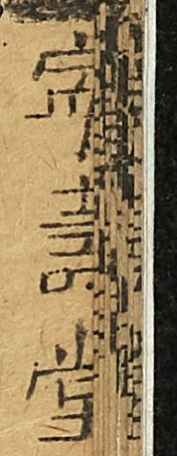寧壽堂
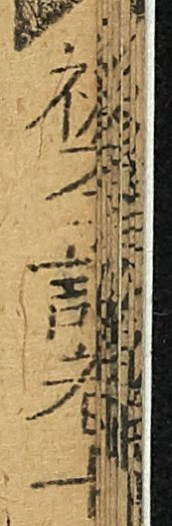初學記卷七
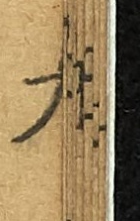九
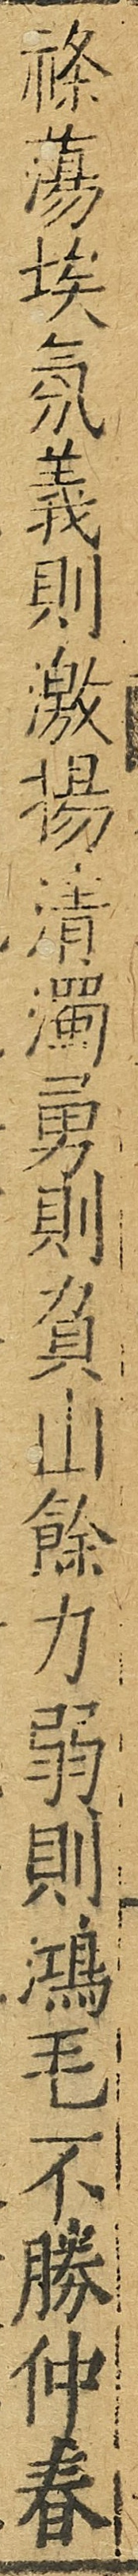滌蕩埃氛義則激揚清濁勇則負山餘力弱則鴻毛不勝仲春
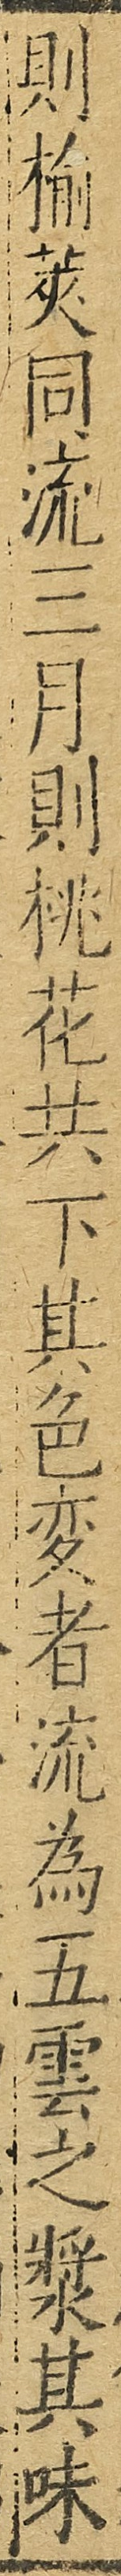則榆莢同流三月則桃花共下其色變者流為五雲之漿其味
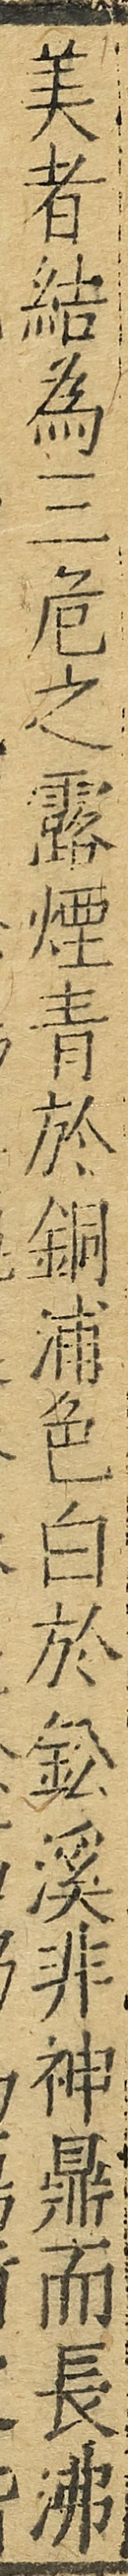美者結為三危之露煙青於銅浦色白於鉛溪非神鼎而長沸
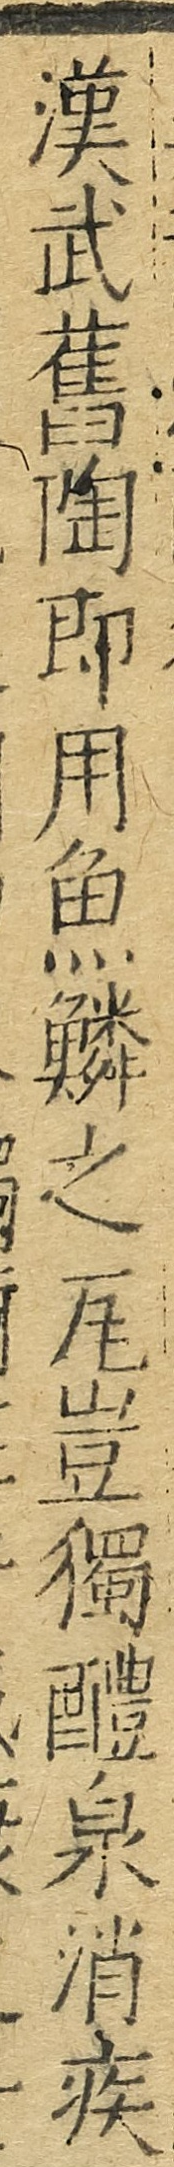漢武舊陶即用魚鱗之瓦豈獨醴泉消疾
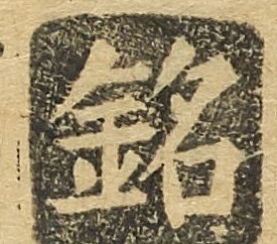銘
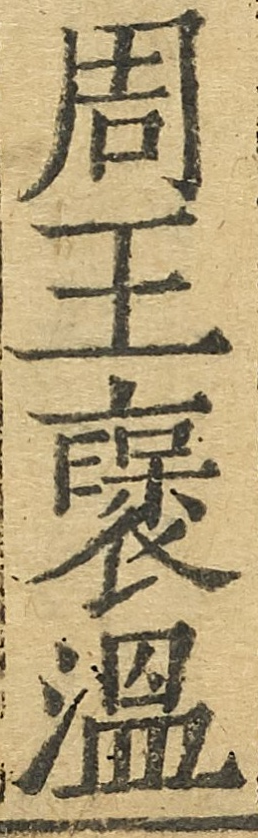周王褒溫
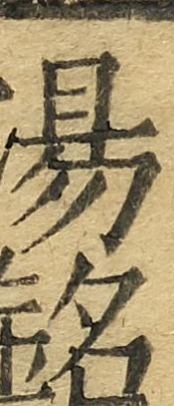湯銘
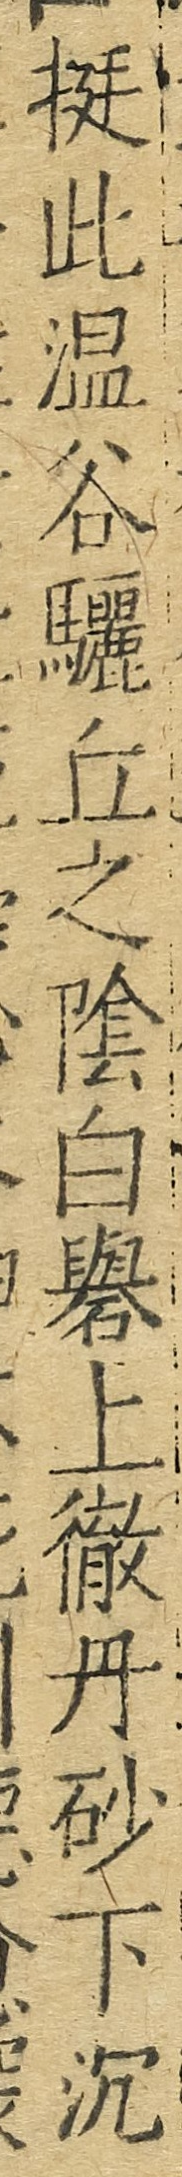挺此溫谷驪丘之陰白礜上徹丹砂下沉
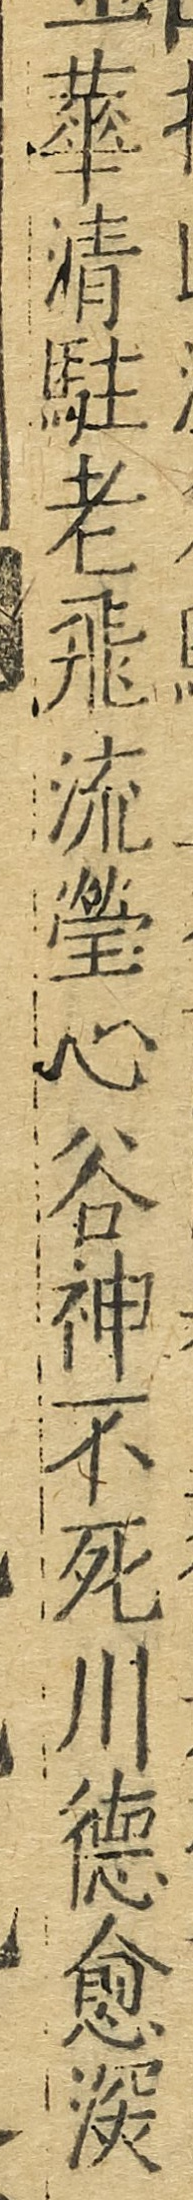華清駐老飛流瑩心谷神不死川德愈深
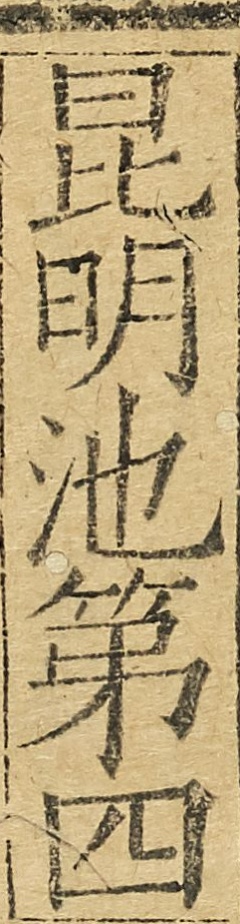昆明池第四
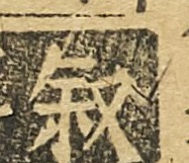敘
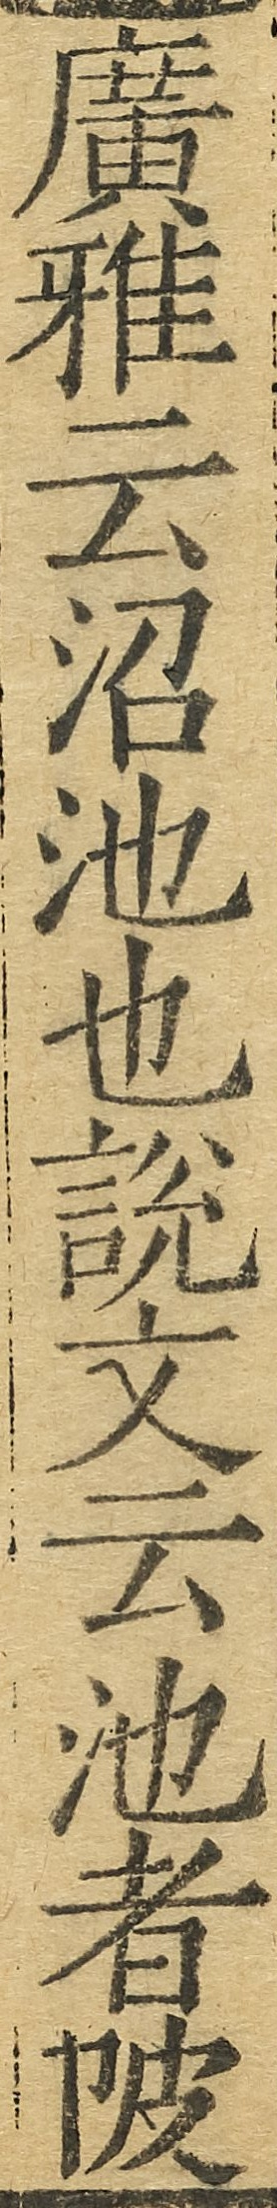廣雅云沼池也說文云池者陂
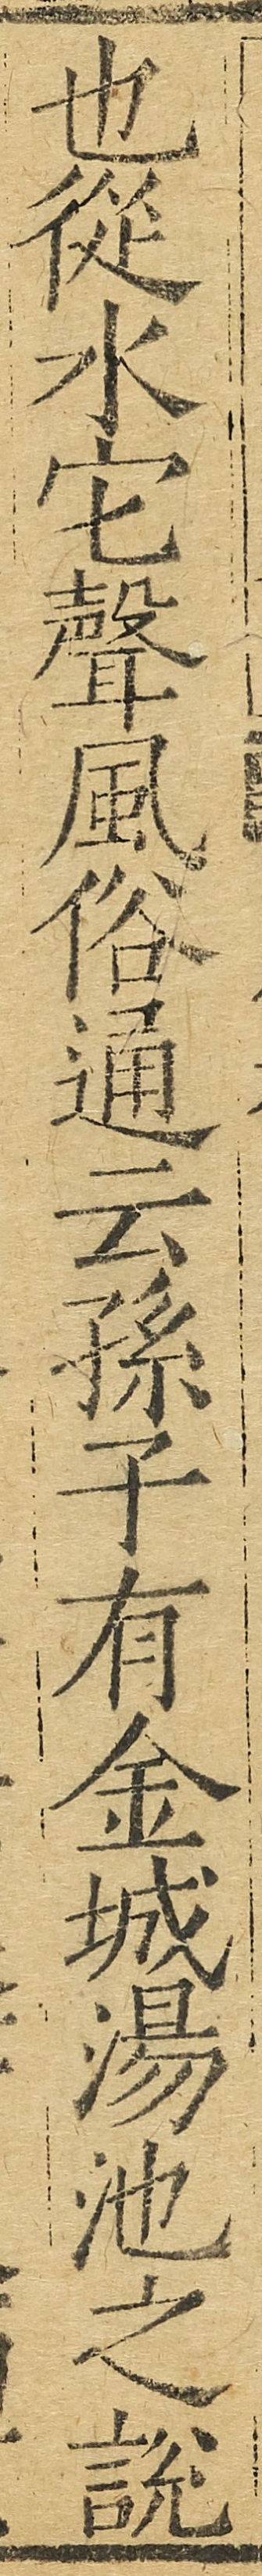也從水它聲風俗通云孫子有金城湯池之說
